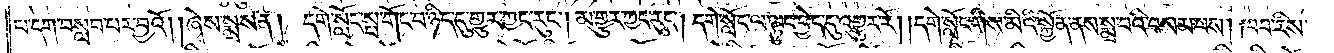པ་དག་བསླབ་པར་བྱའོ། །ཞེས་སྨྲས་ན། དགེ་སློང་སྤ་གོང་བ་ཉིད་དུ་གྱུར་ཀྱང་རུང༌། མ་གྱུར་ཀྱང་རུང༌། དགེ་སློང་ལ་ལྟུང་བྱེད་དུ་འགྱུར་རོ། །དགེ་སློང་གིས་མིའི་སྐྱོན་ནས་སྨྲ་བའི་བསམ་པས། ཁབ་རིས་
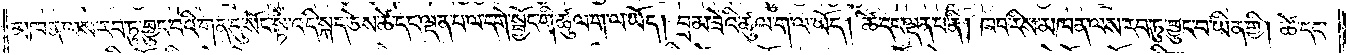མཁན་ལས་རབ་ཏུ་བྱུང་བའི་གན་དུ་སོང་སྟེ་འདི་སྐད་ཅེས་ཚེ་དང་ལྡན་པ་ལ་དགེ་སྦྱོང་གི་ཚུལ་ག་ལ་ཡོད། བྲམ་ཟེའི་ཚུལ་ག་ལ་ཡོད། ཚེ་དང་ལྡན་པ་ནི། ཁབ་རིས་མཁན་ལས་རབ་ཏུ་བྱུང་བ་ཡིན་གྱི། ཚེ་དང་
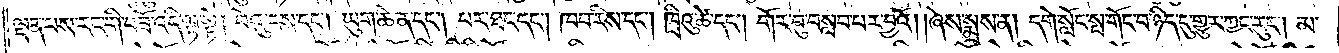ལྡན་པས་རང་གི་བཟོ་འདི་ལྟ་སྟེ། བེའུ་རས་དང༌། ཡུག་ཆེན་དང༌། པར་ཐང་དང༌། ཁབ་རིས་དང༌། ཁྲིའུ་ཚེ་དང༌། གོར་བུ་བསླབ་པར་བྱའོ། །ཞེས་སྨྲས་ན། དགེ་སློང་སྤ་གོང་བ་ཉིད་དུ་གྱུར་ཀྱང་རུང༌། མ་
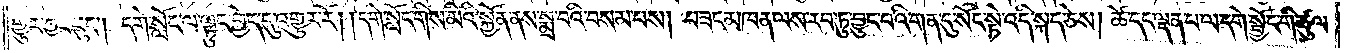གྱུར་ཀྱང་རུང༌། དགེ་སློང་ལ་ལྟུང་བྱེད་དུ་འགྱུར་རོ། །དགེ་སློང་གིས་མིའི་སྐྱོན་ནས་སྨྲ་བའི་བསམ་པས། བཟང་མཁན་ལས་རབ་ཏུ་བྱུང་བའི་གན་དུ་སོང་སྟེ་འདི་སྐད་ཅེས། ཚེ་དང་ལྡན་པ་ལ་དགེ་སྦྱོང་གི་ཚུལ་
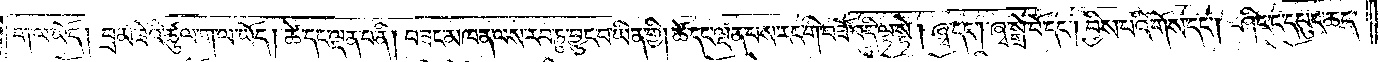ག་ལ་ཡོད། བྲམ་ཟེའི་ཚུལ་ག་ལ་ཡོད། ཚེ་དང་ལྡན་པ་ནི། བཟང་མཁན་ལས་རབ་ཏུ་བྱུང་བ་ཡིན་གྱི། ཚེ་དང་ལྡན་པས་རང་གི་བཟོ་འདི་ལྟ་སྟེ། ཞྭ་དང༌། ཞྭ་སྒྲེ་བོ་དང༌། བྱིས་པའི་གོས་དང༌། ཤིང་ང་དཔུང་ཆད་
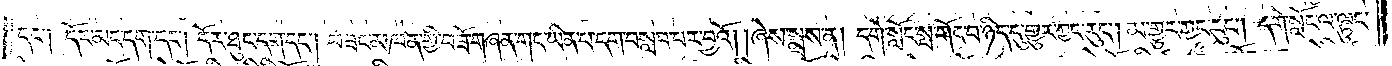དང༌། དོར་མང་དག་དང༌། དོར་ཐུང་དག་དང༌། བཟང་མཁན་གྱི་བཟོ་གཞན་གང་ཡིན་པ་དག་བསླབ་པར་བྱའོ། །ཞེས་སྨྲས་ན། དགེ་སློང་སྤ་གོང་བ་ཉིད་དུ་གྱུར་ཀྱང་རུང༌། མ་གྱུར་ཀྱང་རུང༌། དགེ་སློང་ལ་ལྟུང་
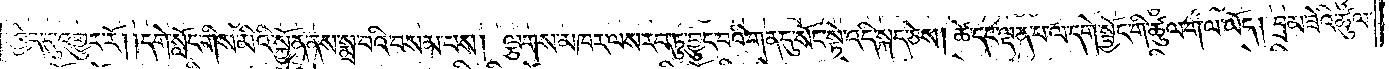བྱེད་དུ་འགྱུར་རོ། །དགེ་སློང་གིས་མིའི་སྐྱོན་ནས་སྨྲ་བའི་བསམ་པས། ལྕགས་མཁར་ལས་རབ་ཏུ་བྱུང་བའི་གན་དུ་སོང་སྟེ་འདི་སྐད་ཅེས། ཚེ་དང་ལྡན་པ་ལ་དགེ་སྦྱོང་གི་ཚུལ་ག་ལ་ཡོད། བྲམ་ཟེའི་ཚུལ་
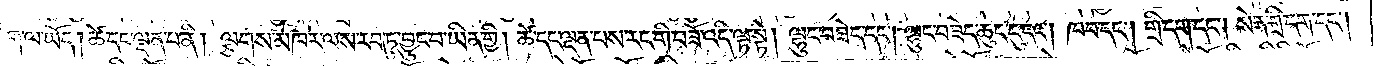ག་ལ་ཡོད། ཚེ་དང་ལྡན་པ་ནི། ལྕགས་མཁར་ལས་རབ་ཏུ་བྱུང་བ་ཡིན་གྱི། ཚེ་དང་ལྡན་པས་རང་གི་བཟོ་འདི་ལྟ་སྟེ། ལྷུང་བཟེད་དང༌། ལྷུང་བཟེད་ཆུང་དུ་དང༌། ཁབ་དང༌། གྲི་དག་དང༌། སེན་གྲི་དག་དང༌།
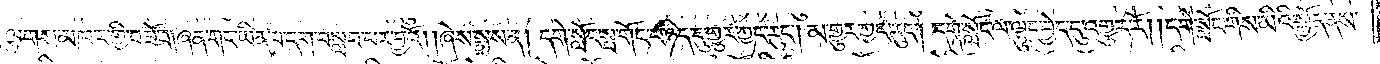ལྕགས་མཁར་གྱི་བཟོ་གཞན་གང་ཡིན་པ་དག་བསླབ་པར་བྱའོ། །ཞེས་སྨྲས་ན། དགེ་སློང་སྤ་གོང་བ་ཉིད་དུ་གྱུར་ཀྱང་རུང༌། མ་གྱུར་ཀྱང་རུང༌། དགེ་སློང་ལ་ལྟུང་བྱེད་དུ་འགྱུར་རོ། །དགེ་སློང་གིས་མིའི་སྐྱོན་ནས་
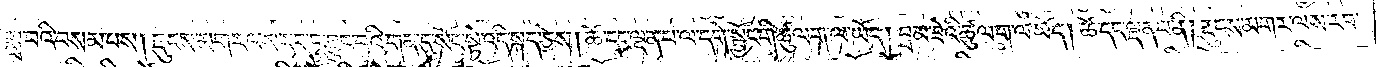སྨྲ་བའི་བསམ་པས། རྡུངས་མགར་ལས་རབ་ཏུ་བྱུང་བའི་གན་དུ་སོང་སྟེ་འདི་སྐད་ཅེས། ཚེ་དང་ལྡན་པ་ལ་དགེ་སྦྱོང་གི་ཚུལ་ག་ལ་ཡོད། བྲམ་ཟེའི་ཚུལ་ག་ལ་ཡོད། ཚེ་དང་ལྡན་པ་ནི། རྡུངས་མགར་ལས་རབ་
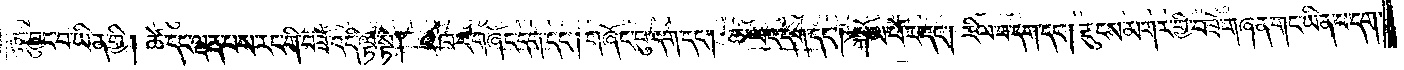ཏུ་བྱུང་བ་ཡིན་གྱི། ཚེ་དང་ལྡན་པས་རང་གི་བཟོ་འདི་ལྟ་སྟེ། འཁར་གཞོང་དག་དང༌། གཞོང་བུ་དག་དང༌། ཆ་ལང་དག་དང༌། སྐོམ་པོར་དང༌། རིལ་བ་དག་དང༌། རྡུངས་མགར་གྱི་བཟོ་གཞན་གང་ཡིན་པ་དག་
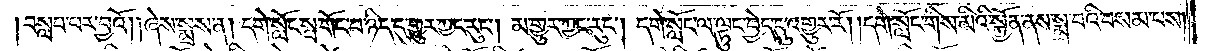བསླབ་པར་བྱའོ། །ཞེས་སྨྲས་ན། དགེ་སློང་སྤ་གོང་བ་ཉིད་དུ་གྱུར་ཀྱང་རུང༌། མ་གྱུར་ཀྱང་རུང༌། དགེ་སློང་ལ་ལྟུང་བྱེད་དུ་འགྱུར་རོ། །དགེ་སློང་གིས་མིའི་སྐྱོན་ནས་སྨྲ་བའི་བསམ་པས།
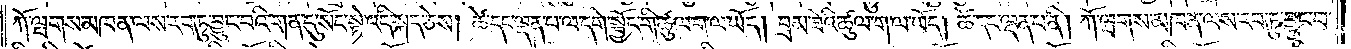ཀོ་ལྤགས་མཁན་ལས་རབ་ཏུ་བྱུང་བའི་གན་དུ་སོང་སྟེ་འདི་སྐད་ཅེས། ཚེ་དང་ལྡན་པ་ལ་དགེ་སྦྱོང་གི་ཚུལ་ག་ལ་ཡོད། བྲམ་ཟེའི་ཚུལ་ག་ལ་ཡོད། ཚེ་དང་ལྡན་པ་ནི། ཀོ་ལྤགས་མཁན་ལས་རབ་ཏུ་བྱུང་བ་
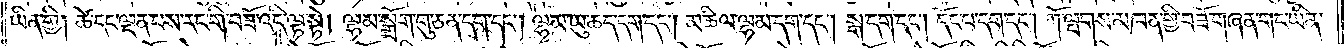ཡིན་གྱི། ཚེ་དང་ལྡན་པས་རང་གི་བཟོ་འདི་ལྟ་སྟེ། ལྷམ་སྒྲོག་གུ་ཅན་དག་དང༌། ལྷམ་ཡུ་ཆད་དག་དང༌། མཆིལ་ལྷམ་དག་དང༌། སྒྲ་དག་དང༌། དོང་པ་དག་དང༌། ཀོ་ལྤགས་མཁན་གྱི་བཟོ་གཞན་གང་ཡིན་
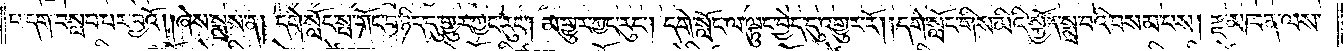པ་དག་བསླབ་པར་བྱའོ། །ཞེས་སྨྲས་ན། དགེ་སློང་སྤ་གོང་བ་ཉིད་དུ་གྱུར་ཀྱང་རུང༌། མ་གྱུར་ཀྱང་རུང༌། དགེ་སློང་ལ་ལྟུང་བྱེད་དུ་འགྱུར་རོ། །དགེ་སློང་གིས་མིའི་སྐྱོན་སྨྲ་བའི་བསམ་པས། རྫ་མཁན་ལས་
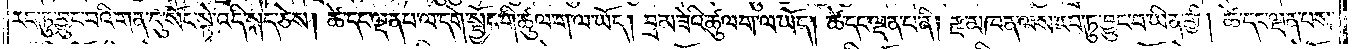རབ་ཏུ་བྱུང་བའི་གན་དུ་སོང་སྟེ་འདི་སྐད་ཅེས། ཚེ་དང་ལྡན་པ་ལ་དགེ་སྦྱོང་གི་ཚུལ་ག་ལ་ཡོད། བྲམ་ཟེའི་ཚུལ་ག་ལ་ཡོད། ཚེ་དང་ལྡན་པ་ནི། རྫ་མཁན་ལས་རབ་ཏུ་བྱུང་བ་ཡིན་གྱི། ཚེ་དང་ལྡན་པས་
